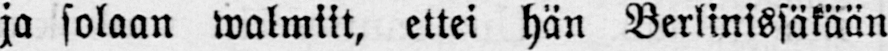ja solaan walmiit, ettei hän Berlinissäkään
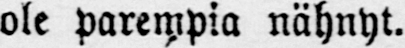ole parempia nähnyt.
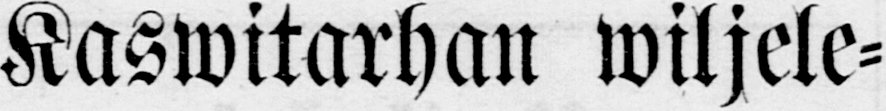Kaswitarhan wiljele-
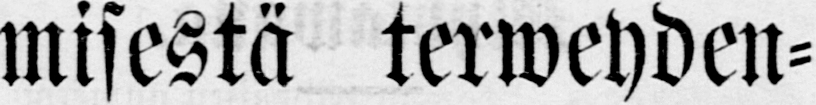misestä teweyden-
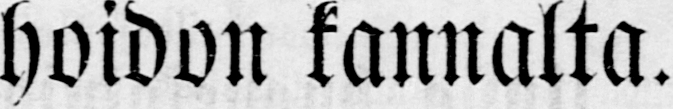hoidon kannalta.
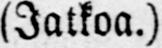(Jatkoa.)
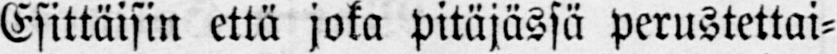Esittäisin että joka pitäjässä perustettai-
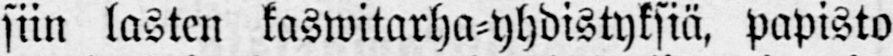siin lasten kaswitarha-yhdistyksiä, papisto
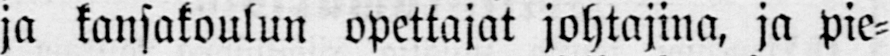ja kansakoulun opettajat johtajina, ja pie-
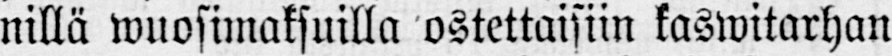nillä wuosimaksuilla ostettaisiin kaswitarhan
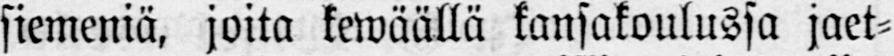siemeniä, joita kewäällä kansakoulussa jaet-
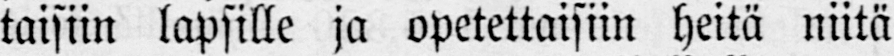taisiin lapsille ja opetettaisiin heitä niitä
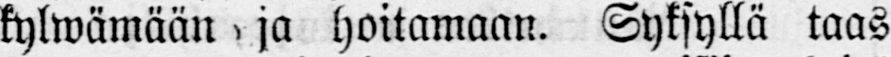kylwämään ja hoitamaan. Syksyllä taas
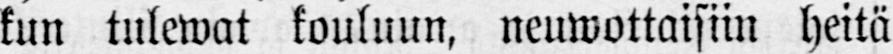kun tulewat kouluun, neuwottaisiin heitä
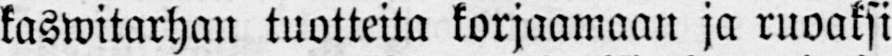kaswitarhan tuotteita korjaamaan ja ruoaksi
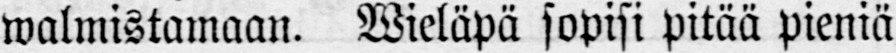walmistamaan. Wieläpä sopisi pitää pieniä
